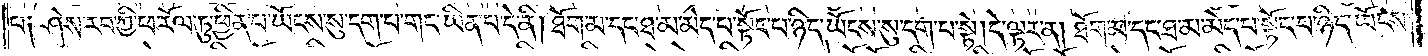པ༑ ཤེས་རབ་ཀྱི་ཕ་རོལ་ཏུ་ཕྱིན་པ་ཡོངས་སུ་དག་པ་གང་ཡིན་པ་དེ་ནི། ཐོག་མ་དང་ཐ་མ་མེད་པ་སྟོང་པ་ཉིད་ཡོངས་སུ་དག་པ་སྟེ། དེ་ལྟར་ན། ཐོག་མ་དང་ཐ་མ་མེད་པ་སྟོང་པ་ཉིད་ཡོངས་
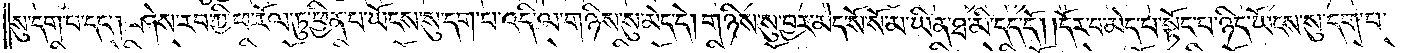སུ་དག་པ་དང༌། ཤེས་རབ་ཀྱི་ཕ་རོལ་ཏུ་ཕྱིན་པ་ཡོངས་སུ་དག་པ་འདི་ལ་གཉིས་སུ་མེད་དེ། གཉིས་སུ་བྱར་མེད་སོ་སོ་མ་ཡིན་ཐ་མི་དད་དོ། །དོར་བ་མེད་པ་སྟོང་པ་ཉིད་ཡོངས་སུ་དག་པ་
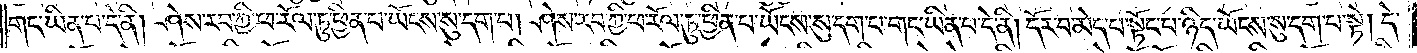གང་ཡིན་པ་དེ་ནི། ཤེས་རབ་ཀྱི་ཕ་རོལ་ཏུ་ཕྱིན་པ་ཡོངས་སུ་དག་པ། ཤེས་རབ་ཀྱི་ཕ་རོལ་ཏུ་ཕྱིན་པ་ཡོངས་སུ་དག་པ་གང་ཡིན་པ་དེ་ནི། དོར་བ་མེད་པ་སྟོང་པ་ཉིད་ཡོངས་སུ་དག་པ་སྟེ། དེ་
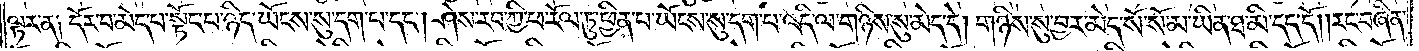ལྟར་ན༑ དོར་བ་མེད་པ་ཉིད་ཡོངས་སུ་དག་པ་དང༌། ཤེས་རབ་ཀྱི་ཕ་རོལ་ཏུ་ཕྱིན་པ་ཡོངས་སུ་དག་པ་འདི་ལ་གཉིས་སུ་མེད་དེ། གཉིས་སུ་བྱར་མེད་སོ་སོ་མ་ཡིན་ཐ་མི་དད་དོ། །རང་བཞིན་
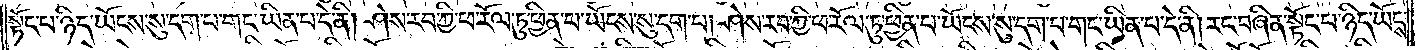སྟོང་པ་ཉིད་ཡོངས་སུ་དག་པ་གང་ཡིན་པ་དེ་ནི། ཤེས་རབ་ཀྱི་ཕ་རོལ་ཏུ་ཕྱིན་པ་ཡོངས་སུ་དག་པ། ཤེས་རབ་ཀྱི་ཕ་རོལ་ཏུ་ཕྱིན་པ་ཡོངས་སུ་དག་པ་གང་ཡིན་པ་དེ་ནི། རང་བཞིན་སྟོང་པ་ཉིད་ཡོངས་
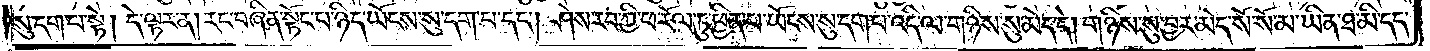སུ་དག་པ་སྟེ། དེ་ལྟར་ན། རང་བཞིན་སྟོང་པ་ཉིད་ཡོངས་སུ་དག་པ་དང༌། ཤེས་རབ་ཀྱི་ཕ་རོལ་ཏུ་ཕྱིན་པ་ཡོངས་སུ་དག་པ་འདི་ལ་གཉིས་སུ་མེད་དེ། གཉིས་སུ་བྱར་མེད་སོ་སོ་མ་ཡིན་ཐ་མི་དད་
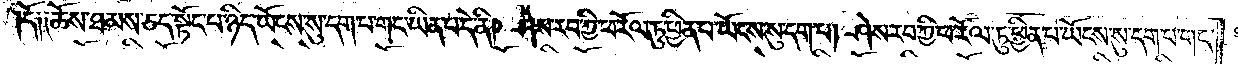དོ༑ ༑ཆོས་ཐམས་ཅད་སྟོང་པ་ཉིད་ཡོངས་སུ་དག་པ་གང་ཡིན་པ་དེ་ནི། ཤེས་རབ་ཀྱི་ཕ་རོལ་ཏུ་ཕྱིན་པ་ཡོངས་སུ་དག་པ། ཤེས་རབ་ཀྱི་ཕ་རོལ་ཏུ་ཕྱིན་པ་ཡོངས་སུ་དག་པ་གང་
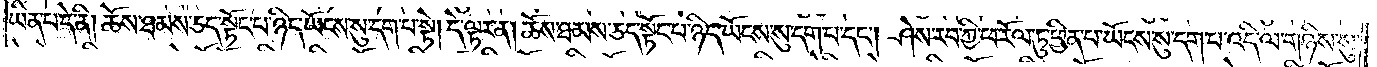ཡིན་པ་ད་ནི། ཆོས་ཐམས་ཅད་སྟོང་པ་ཉིད་ཡོངས་སུ་དག་པ་སྟེ། དེ་ལྟར་ན། ཆོས་ཐམས་ཅད་སྟོང་པ་ཉིད་ཡོངས་སུ་དག་པ་དང༌། ཤེས་རབ་ཀྱི་ཕ་རོལ་ཏུ་ཕྱིན་པ་ཡོངས་སུ་དག་པ་འདི་ལ་གཉིས་སུ་
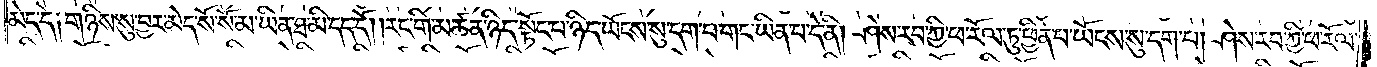མེད་དེ༑ གཉིས་སུ་བྱར་མེད་སོ་སོ་མ་ཡིན་ཐ་མི་དད་དོ། །རང་གི་མཚན་ཉིད་སྟོང་པ་ཉིད་ཡོངས་སུ་དག་པ་གང་ཡིན་པ་དེ་ནི། ཤེས་རབ་ཀྱི་ཕ་རོལ་ཏུ་ཕྱིན་པ་ཡོངས་སུ་དག་པ། ཤེས་རབ་ཀྱི་ཕ་རོལ་
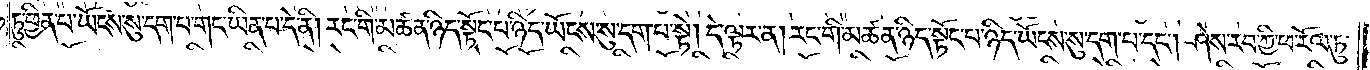ཏུ་ཕྱིན་པ་ཡོངས་སུ་དག་པ་གང་ཡིན་པ་དེ་ནི། རང་གི་མཚན་ཉིད་སྟོང་པ་ཉིད་ཡོངས་སུ་དག་པ་སྟེ། དེ་ལྟར་ན། རང་གི་མཚན་ཉིད་སྟོང་པ་ཉིད་ཡོངས་སུ་དག་པ་དང༌། ཤེས་རབ་ཀྱི་ཕ་རོལ་ཏུ་
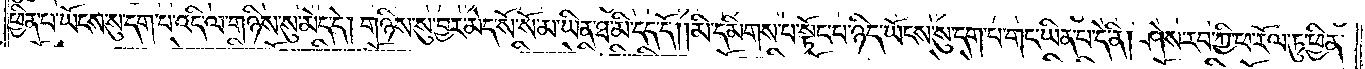ཕྱིན་པ་ཡོངས་སུ་དག་པ་འདི་ལ་གཉིས་སུ་མེད་དེ། གཉིས་སུ་བྱར་མེད་སོ་སོ་མ་ཡིན་ཐ་མི་དད་དོ། །མི་དམིགས་པ་སྟོང་པ་ཉིད་ཡོངས་སུ་དག་པ་གང་ཡིན་པ་དེ་ནི། ཤེས་རབ་ཀྱི་ཕ་རོལ་ཏུ་ཕྱིན་
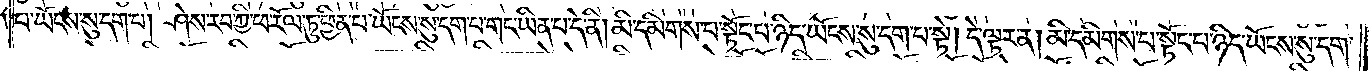པ་ཡོངས་སུ་དག་པ། ཤེས་རབ་ཀྱི་ཕ་རོལ་ཏུ་ཕྱིན་པ་ཡོངས་སུ་དག་པ་གང་ཡིན་པ་དེ་ནི། མི་དམིགས་པ་སྟོང་པ་ཉིད་ཡོངས་སུ་དག་པ་སྟེ། དེ་ལྟར་ན། མི་དམིགས་པ་སྟོང་པ་ཉིད་ཡོངས་སུ་དག་
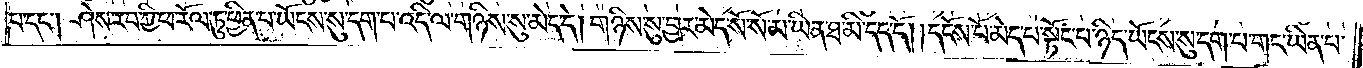པ་དང༌། ཤེས་རབ་ཀྱི་ཕ་རོལ་ཏུ་ཕྱིན་པ་ཡོངས་སུ་དག་པ་འདི་ལ་གཉིས་སུ་མེད་དེ། གཉིས་སུ་བྱར་མེད་སོ་སོ་མ་ཡིན་ཐ་མི་དད་དོ། །དངོས་པོ་མེད་པ་སྟོང་པ་ཉིད་ཡོངས་སུ་དག་པ་གང་ཡིན་པ་
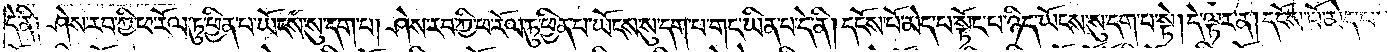དེ་ནི༑ ཤེས་རབ་ཀྱི་ཕ་རོལ་ཏུ་ཕྱིན་པ་ཡོངས་སུ་དག་པ། ཤེས་རབ་ཀྱི་ཕ་རོལ་ཏུ་ཕྱིན་པ་ཡོངས་སུ་དག་པ་གང་ཡིན་པ་དེ་ནི། དངོས་པོ་མེད་པ་སྟོང་པ་ཉིད་ཡོངས་སུ་དག་པ་སྟེ། དེ་ལྟར་ན། དངོས་པོ་མེད་པ་
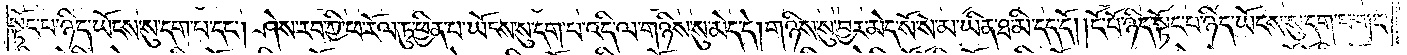སྟོང་པ་ཉིད་ཡོངས་སུ་དག་པ་དང༌། ཤེས་རབ་ཀྱི་ཕ་རོལ་ཏུ་ཕྱིན་པ་ཡོངས་སུ་དག་པ་འདི་ལ་གཉིས་སུ་མེད་དེ། གཉིས་སུ་བྱར་མེད་སོ་སོ་མ་ཡིན་ཐ་མི་དད་དོ། །ངོ་བོ་ཉིད་སྟོང་པ་ཉིད་ཡོངས་སུ་དག་པ་གང་
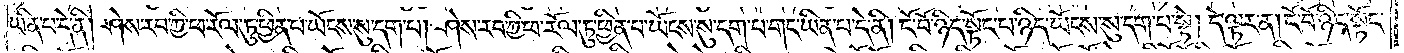ཡིན་པ་དེ་ནི། ཤེས་རབ་ཀྱི་ཕ་རོལ་ཏུ་ཕྱིན་པ་ཡོངས་སུ་དག་པ། ཤེས་རབ་ཀྱི་ཕ་རོལ་ཏུ་ཕྱིན་པ་ཡོངས་སུ་དག་པ་གང་ཡིན་པ་དེ་ནི། ངོ་བོ་ཉིད་སྟོང་པ་ཉིད་ཡོངས་སུ་དག་པ་སྟེ། དེ་ལྟར་ན། ངོ་བོ་ཉིད་སྟོང་
